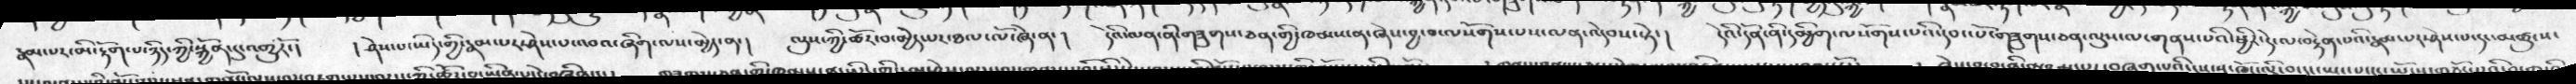རྣམ་པར་མི་རྟོག་པ་ཉིད་ཀྱི་སྐྱོན་དུ་འགྱུརོ་།   ། ཤེས་པ་ཡིད་གྱི་རྣམ་པར་ཤེས་པ་འབའ་ཞིག་ལས་མྱེད་ན་།  ལུས་ཀྱི་ཚར་བ་མྱེད་པར་ཐལ་ལ་ཞེ་ན་།   དེའི་ལན་གཟུགསཅན་གྱི་ཁམས་ན་ཞེས་བྱ་བ་ལསོགས་པས་ལན་འདེབས་སྟེ་།   དེའི་དོན་ནི་དམྱིག་ལསོགས་པའི་དབང་པོ་གཟུགས་ཅན་ལུས་ལ་གནས་པའི་ཕྱིར་དེ་ལ་བརྟེན་པའི་རྣམ་པར་ཤེས་པ་དངད་མཚུངས་
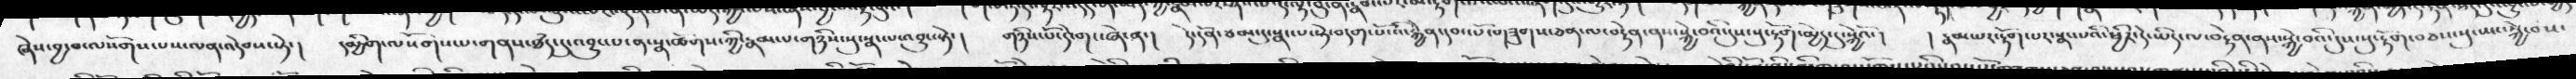ཞེས་བྱ་བ་ལསོགས་པས་ལན་འདེབས་སྟེ་།  དམྱིག་ལསོགས་པ་གནས་ཐཾད་དུ་འབྱུང་པ་ན་སྣ་ཚོགས་ཀྱི་རྣམ་པ་གཉིས་སུ་སྣང་ལ་འབྱུང་སྟེ་།   གཉིས་པོ་དེ་གང་ཞེ་ན་།   དེ་དོན་ཙམ་དུ་སྣང་པ་སྟེ་བདག་པོ་འི་རྐྱེན་དབང་པོ་གཟུགས་ཅན་ལ་བརྟེན་ནས་སྐྱེ་བའི་དུས་སུ་རྟོག་མྱེད་དུ་སྐྱེའོ་།   ། རྣམ་པར་རྟོག་པར་སྣང་པའི་ཕྱིར་དེ་ཡིད་ལ་བརྟེན་ནས་སྐྱེ་བའི་དུས་སུ་རྟོག་བཅས་སུ་ཡང་སྐྱེ་བས་
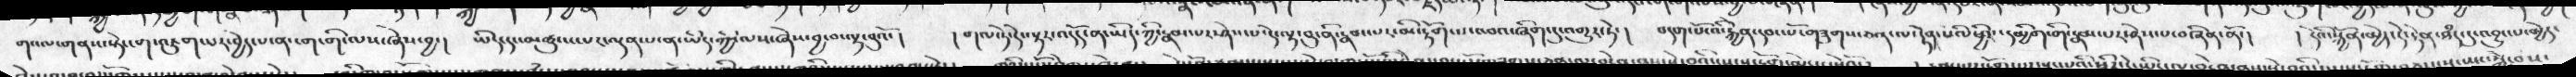གསལ་གནས་སྟེ་ངག་འཇུག་པར་བྱེད་པ་ན་ངག་གི་ལས་ཞེས་བྱ་།   ཡིད་དང་མཚུངས་པར་ལྡན་པ་ན་ཡིད་ཀྱི་ལས་ཞེས་བྱ་བ་ལྟ་བུའོ་།  ། གལ་ཏེ་དེ་ལྟར་འདོད་ན་ཡིད་ཀྱི་རྣམ་པར་ཤེས་པ་དེ་ལྟ་བུ་ནི་རྣམ་པར་མི་རྟོག་པ་འབའ་ཞིག་དུ་འགྱུར་ཏེ་།  བདག་པོའི་རྐྱེན་དབང་པོ་གཟུགས་ཅན་ལ་རྟེན་པའི་ཕྱིར་དམྱིག་གི་རྣམ་པར་ཤེས་བཞིན་ནོ་།   ། དེའི་སྐྱོན་མྱེད་དེ་རྟེན་ཐཾད་དུ་འབྱུང་པ་མྱེད་
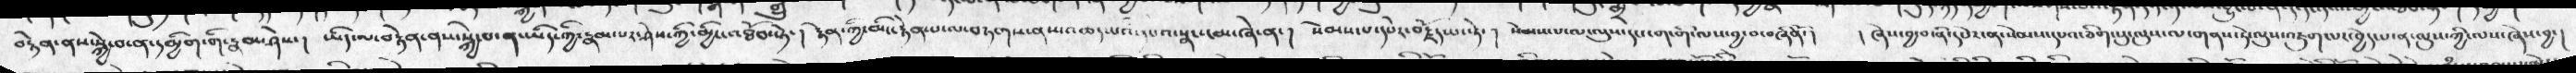བརྟེན་ནས་སྐྱེ་བ་ན་དམྱིག་གི་རྣམ་ཤེས་།   ཡིད་ལ་བརྟེན་ནས་སྐྱེ་བ་ན་ཡིད་ཀྱི་རྣམ་པར་ཤེས་ཀྱི་མྱིང་འཐོབ་སྟེ་།  རྟེན་གྱི་མིང་རྟེན་པ་ལ་བཏགས་ནས་འཆད་པའི་དཔའ་སྣང་ངམ་ཞེ་ན་།  སེམས་པ་དཔེར་བརྗོད་པ་སྟེ་།  སེམས་པ་ལ་ལུས་དང་ངག་གི་་ལས་བྱ་བ་བཞིནོ་།  ། ཞེས་བྱ་བ་ནི་དཔེར་ན་སེམས་དཔའ་ཅིག་པུ་ལུས་ལ་གནས་ཏེ་ལུས་འཇུག་པར་བྱེད་པ་ན་ལུས་ཀྱི་ལས་ཞེས་བྱ་།
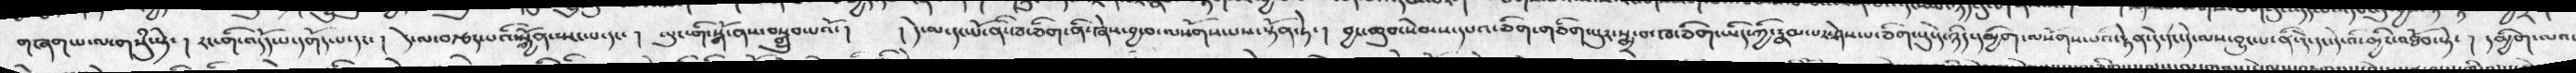གཞག་པ་ལ་གསུམ་སྟེ་།  རང་གི་འདོད་པ་དགོད་པ་དང་།   དེ་ལ་བརྩད་པའི་སྐྱོན་སྤང་པ་དང་།  ལུང་གི་སྒོ་ནས་བསྒྲུབ་པའོ་།  ། དེ་ལ་དང་པོ་ནི་ཁ་ཅིག་ནི་ཞེས་བྱ་བ་ལསོགས་པས་སྟོན་ཏེ་།   བྱང་ཆུབ་སེམས་དཔའ་ཅིག་གཅིག་པར་སྨྲ་བ་ཁ་ཅིག་ཡིད་ཀྱི་རྣམ་པར་ཤེས་ཅིག་པུ་དེ་ཉིད་དམྱིག་ལསོགས་པའི་རྟེན་དེ་དང་དེ་ལས་བྱུང་པ་ནི་དེ་དང་དེ་འི་མྱིང་འཐོབ་སྟེ་ །  དམྱིག་ལའ་
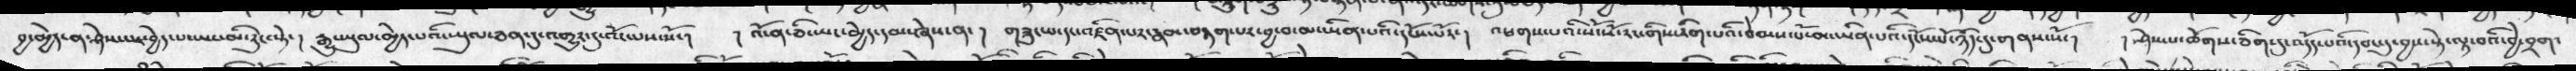བྱ་མྱེད་ན་ཤེས་པར་བྱེད་པ་ཡང་མི་རུང་སྟེ་།  རྒྱུ་ཡུལ་མྱེད་པའི་ཡུལ་ཅན་དུ་འགྱུར་དུ་འོང་པས་སོ་།  ། འོ་ན་ཅི་ཡང་མྱེད་དམ་ཞེས་ན་།  གཟུང་པ་དང་འཛིན་པར་རྣམ་བརྟག་པར་བྱ་བ་མ་ཡིན་པའི་དངོས་་པོར་།   འཕགས་པའི་སོ་སོ་རང་གི་རིག་པའི་བེམས་པོ་མ་ཡིན་པའི་དངོས་པོ་ཉིད་དུ་གནས་སོ་།   །ཤེས་པ་ཚོགས་ཅིག་དུ་འདོད་པའི་དབང་དུ་བྱས་སྟེ་ལྟ་བའི་བྱེ་བྲག་
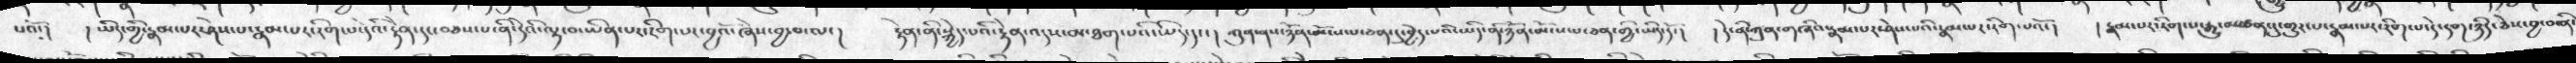པའོ་།  ། ཡིད་ཀྱི་རྣམ་པར་ཤེས་པ་རྣམ་པར་རིག་པ་དེའི་རྟེན་དང་བཅས་པ་ནི་དེའི་ལྟ་བ་ཡིན་པར་རིག་པར་བྱའོ་ཞེས་བྱ་བ་ལ་།   རྟེན་ནི་སྐྱེད་པའི་རྟེན་འདས་མ་ཐག་པའི་ཡིད་དང་།  ཀུན་ནས་ཉོན་མོངས་པ་ཅན་དུ་བྱེད་པའི་ཡིད་ནི་ཉོན་མོངས་པ་ཅན་གྱི་ཡིན་དོ་།  ། དེ་ནི་ཀུན་གཞིའ་རྣམ་པར་ཤེས་པའི་རྣམ་པར་རིག་པའོ་།   ། རྣམ་པར་ཏིག་པ་རྒྱུ་མཚན་དུ་གྱུར་པ་རྣམ་པར་རིག་པ་དེ་དག་ཉིད་ཅེས་བྱ་བ་ནི་
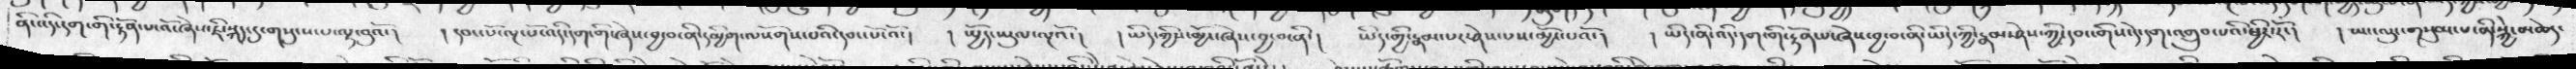ནི་འདི་དག་གི་རྟོན་པ་འོ་ཞེས་འཇི་སྐད་དུ་གསུངས་པ་ལྟ་བུའོ་།   ། དབང་པོ་ལྔ་པོ་འདི་དག་གི་ཞེས་བྱ་བ་ནི་དམྱིག་ལསོགས་པའི་དབང་པོ་འོ་།  ། སྤྱོད་ཡུལ་ལྔའོ་།  ། ཡིད་ཀྱིས་མྱོང་ཞེས་བྱ་བ་ནི་།  ཡིད་ཀྱི་རྣམ་པར་ཤེས་པས་མྱོང་པའོ་།  ཡིད་ནི་འདི་དག་གི་རྟེན་པ་ཞེས་བྱ་བ་ནི་ཡིད་ཀྱི་རྣམ་ཤེས་ཀྱི་དབང་གིས་དེ་དག་འགྲུབ་པའི་ཕྱིར་རོ་།  ། ཡང་ལུང་གསུམ་པ་ནི་སྐྱེ་མཆེད་
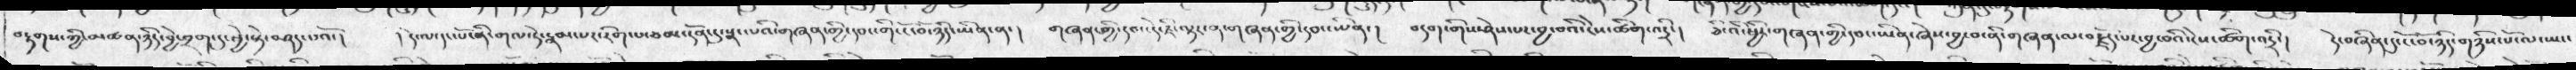བརྟགས་ཀྱི་མཚན་ཉིད་བྱེ་བྲག་དུ་ཕྱེ་སྟེ་བཤད་པའོ་།  ། དེ་ལ་དང་པོ་ནི་གལ་ཏེ་རྣམ་པར་རིག་པ་ཙམ་དོན་དུ་སྣང་པའི་གཞན་གྱི་དབང་གི་ངོ་བོ་ཉིད་ཡིན་ན་།  གཞན་གྱི་དབང་དེ་ཇི་ལྟར་ན་གཞན་གྱི་དབང་ཡིན་།  བདག་གིས་ཤེས་པར་བྱ་བའི་ངེས་ཚིག་འདྲི་།   ཅིའི་ཕྱིར་གཞན་གྱི་དབང་ཡིན་ཞེས་བྱ་བ་ནི་གཞན་ལ་བརྗོད་པར་བྱ་བའི་ངེས་ཚིག་འདྲི་།  དེ་བཞཞིན་དུ་ངོ་བོ་ཉིད་གཉིས་པོ་ལ་ཡང་
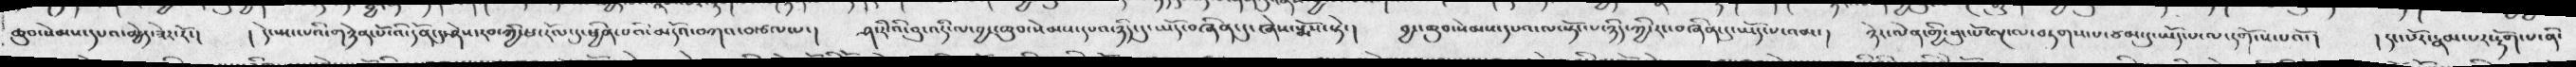ཆུབ་སེམས་དཔའ་མྱེད་ཟེར་རོ་།   ། དེ་སྤང་པའི་གཉེན་པོ་འི་དོན་དུ་ཤེས་རབ་ཀྱི་ཕ་རོལ་དུ་ཕྱིན་པའི་མདོའ་བཀའ་བརྩལ་པ་།  ཤ་རི་འི་བུ་འདི་ལ་བྱང་ཆུབ་སེམས་དཔའ་ཉིད་དུ་ཡོད་བཞིན་དུ་ཞེས་སྨོས་སྟེ་།  བྱང་ཆུབ་སེམས་དཔའ་ལ་སྟོང་པ་ཉིད་ཀྱི་རང་བཞིན་དུ་ཡོད་འམ་།   ཉེར་ལེན་གྱི་ཕུང་པོ་ལྔ་ལ་བཏགས་པ་ཙམ་དུ་ཡོད་པ་ལ་དགོངས་པའོ་།  ། དང་པོར་རྣམ་པར་རྟོག་པ་ནི་
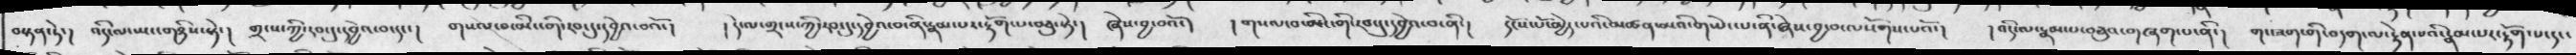བསྟན་ཏེ་།  འདི་ལ་ཡང་གཉིས་སྟེ་།  གྲ་ས་ཀྱི་དབང་དུ་དབྱེ་བ་དང་།  གསལ་བ་མིང་གི་དབང་དུ་དབྱེའ་བའོ་།  ། དེ་ལ་གྲངས་ཀྱི་དབང་དུ་དབྱེའ་བ་ནི་རྣམ་པར་རྟོག་པ་བཅུ་སྟེ་།  ཞེས་བྱ་བའོ་།  ། གསལ་བ་མིང་གི་དབང་དུ་དབྱེ་བ་ནི་།  དངོས་པོ་མྱེད་པའི་མཚན་མའི་གཡེང་པ་ནི་ཞེས་བྱ་བ་ལསོགས་པའོ་།   ། འདི་ལ་རྣམ་པ་བཅུའ་གཞག་པ་ནི་།  གང་ཟག་གི་བདག་ལ་རྟེན་པའི་རྣམ་པར་རྟོག་པ་དང་
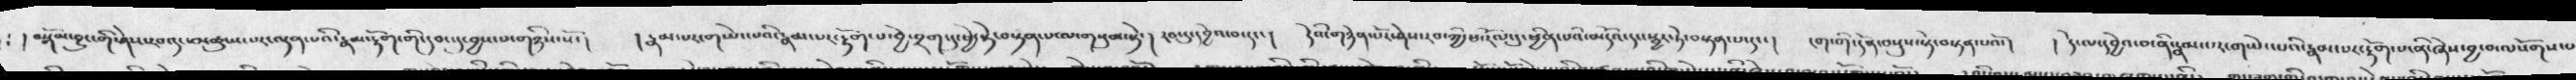། བསྒོམ་བྱུང་གི་ཤེས་རབ་དང་མཚུངས་པར་ལྡན་པའི་རྣམ་རྟོག་གི་དབང་དུ་བྱས་པ་གཉིས་སོ་།  ། རྣམ་པར་གཡེང་པའི་རྣམ་པར་རྟོག་པ་བྱེ་བྲག་དུ་ཕྱེ་སྟེ་བསྟན་པ་ལ་གསུམ་སྟེ་།  རབ་ཏུ་དབྱེའ་བ་དང་།  དེའི་གཉེན་པོར་ཤེས་རབ་ཀྱི་ཕ་རོལ་དུ་ཕྱིན་པའི་མདོའ་དང་སྦྱར་ཏེ་བསྟན་པ་དང་།  ངག་གི་དོན་བསྡུས་སྟེ་བསྟན་པའོ་།  ། དེ་ལ་དབྱེའ་བ་ནི་རྣམ་པར་གཡེང་པའི་རྣམ་པར་རྟོག་པ་ནི་ཞེས་བྱ་བ་ལསོགས་པ་
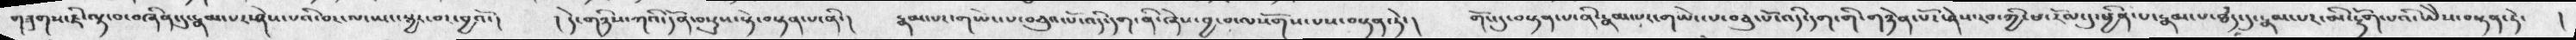གཟུགས་ཇི་ལྟ་བ་བཞིན་དུ་རྣམ་པར་ཤེས་པ་འི་བར་ལ་ཡང་སྦྱར་བར་བྱའོ་།   ། དེ་གཉིས་ཀའི་དོན་བསྡུས་སྟེ་བསྟན་པ་ནི་།   རྣམ་པར་གཡེང་པ་བཅུའ་པོ་འདི་དག་ནི་ཞེས་བྱ་བ་ལསོགས་པས་བསྟན་ཏེ་།  གོང་དུ་བསྟན་པ་ནི་རྣམ་པར་གཡེང་པ་བཅུ་པོ་འདི་དག་གི་གཉེན་པོར་ཤེས་རབ་ཀྱི་ཕ་རོལ་དུ་ཕྱིན་པ་རྣམ་པ་ཐཾད་དུ་རྣམ་པར་མི་རྟོག་པའི་ཡེེས་བསྟན་ཏེ་  །
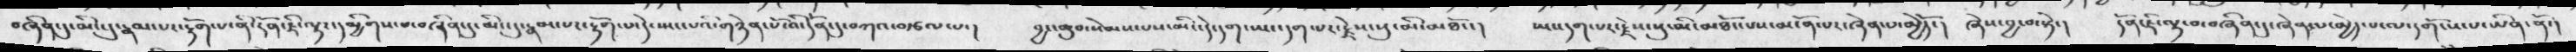བཞིན་དུ་མིང་དུ་རྣམ་པར་རྟོག་པ་ན་དོན་ཇི་ལྟར་དམྱིགས་པ་བཞིན་དུ་རྣམ་པར་རྟོག་པ་དེ་སྤང་པའི་གཉེན་པོ་འི་དོན་དུ་བཀའ་བརྩལ་པ་།   བྱང་ཆུབ་སེམས་པས་མིང་དེ་དག་ཡང་དག་པར་རྗེས་སུ་མི་མཐོང་།   ཡང་དག་པར་རྗེས་སུ་མི་མཐོང་པས་མངོན་པར་ཞེན་པ་མྱེད་དོ་།  ཞེས་བྱ་བ་སྟེ་།  དོན་ཇི་ལྟ་བ་བཞིན་དུ་ཞེན་པ་མྱེད་པ་ལ་དགོངས་པ་ཡིན་ནོ་།
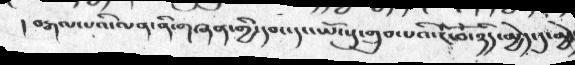། བརྒལ་པའ་ལན་ནི་གཞན་གྱི་དབང་དང་ཡོངསུ་གྲུབ་པའི་ངོ་བོ་ཉིད་མྱེད་དུ་མྱེད་
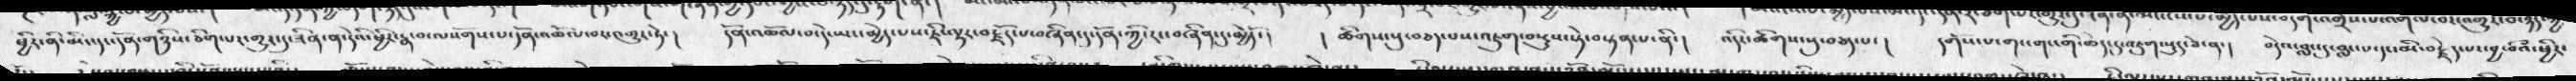ཕྱིར་ནི་མིང་དང་དོན་གཉིས་ཅིག་པར་གྱུར་དུ་ཟིན་ན་དེའི་ཕྱིར་རྣ་བ་ལསོགས་པ་དོན་འཆོལ་བར་འགྱུར་ཏེ་།  དོན་འཆོལ་བ་དེ་ཡང་མྱེད་པས་ཇི་ལྟར་བརྗོད་པ་བཞིན་དུ་དོན་རང་བཞིན་དུ་མྱེད་དོ་།  ། ཚིགས་སུ་བཅད་པས་འཇུག་བསྡུས་སྟེ་བསྟན་པ་ནི་།  འདིར་ཚིགས་སུ་བཅད་པ་།   དགོས་པ་གང་གང་གི་ཆེད་དུ་འཇུག་སྡུད་ཅེ་ན་།   བདེའ་བླང་དུ་་བླང་པ་དང་མི་བརྗེ་པ་བྱ་བའི་ཕྱིར་།
